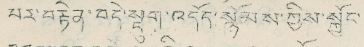པར་བརྟེན་བདེ་སྡུག་འདོད་སྙོམས་ཀྱིས་སྐྱོང་
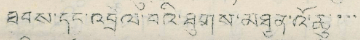ཐབས་དང་འབྲེལ་བའི་ཐུགས་མཐུན་འོཆུ་་་
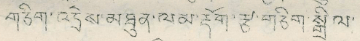གཅིག་འདྲེས་མཐུན་ལམ་རྡོག་རྩ་གཅིག་སྒྲིལ་
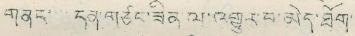གནང་དན་གཙང་ཟིན་ལ་འགྱུར་བ་མེད་ཐོག་
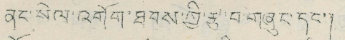ནང་སེལ་འགོག་ཐབས་ཀྱི་རྩ་བ་གཞུང་དང་།
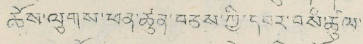ཆོས་ལུགས་ཕན་ཚུན་བཅས་ཀྱི་དབར་བས་ཚུལ་
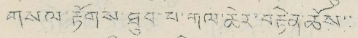གསལ་རྟོགས་ཐུབ་པ་གལ་ཆེར་བརྟེན་ཆོས་་
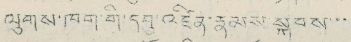ལུགས་ཁག་གི་དབུ་འཛིན་རྣམས་སྐབས་་་
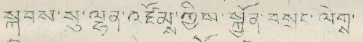སྐབས་སུ་ལྷན་འཛོམ་གྱིབ་སྐྱོན་བསྲང་ལེགྶ་
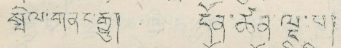སྤེལ་གནང་རྒྱུ། དོན་ཚན་ལྔ་པ།
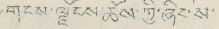གངས་ལྗོངས་ཆོས་ཀྱི་ཞིང་ས་
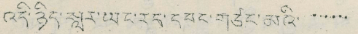འདི་ཉིད་སླར་ཡང་རང་དབང་གྩང་མའི་་་་་་
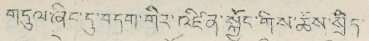གདུལ་ཞིང་དུ་བདག་གིར་འཛིན་སྐྱོང་གིས་ཆོས་སྲིད
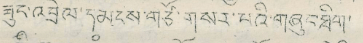ཟུང་འབྲེལ་དམངས་གཙོ་གསྲ་པའི་གཞུང་ཐིག་
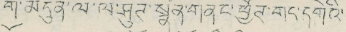གི་མདུན་ལཾ་ལ་ཤུཊ་སྣོན་གནང་ཕྱོཊ་གང་དགེའི་
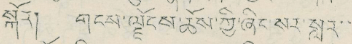སྐོར། གངས་ལྗོངས་ཆོས་ཀྱི་ཞིང་ས་སླར་་
